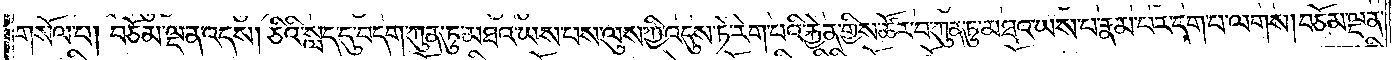གསོལ་པ། བཅོམ་ལྡན་འདས། ཅིའི་སླད་དུ་བདག་ཀུན་ཏུ་མཐའ་ཡས་པས་ལུས་ཀྱི་འདུས་ཏེ་རེག་པའི་རྐྱེན་གྱིས་ཚོར་བ་ཀུན་ཏུ་མཐའ་ཡས་པ་རྣམ་པར་དག་པ་ལགས། བཅོམ་ལྡན་
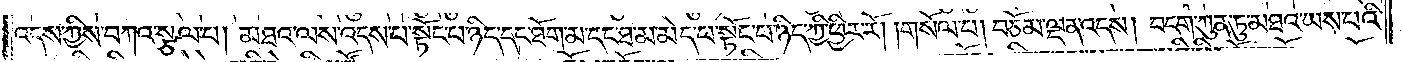འདས་ཀྱིས་བཀའ་སྩལ་པ། མཐའ་ལས་འདས་པ་སྟོང་པ་ཉིད་དང་ཐོག་མ་དང་ཐ་མ་མེད་པ་སྟོང་པ་ཉིད་ཀྱི་ཕྱིར་རོ། །གསོལ་པ། བཅོམ་ལྡན་འདས། བདག་ཀུན་ཏུ་མཐའ་ཡས་པའི་
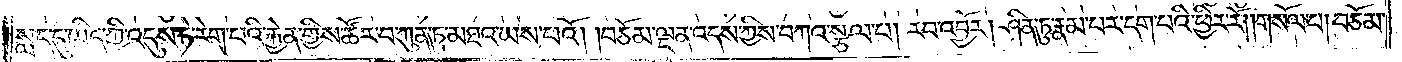སླད་དུ་ཡིད་ཀྱི་འདུས་ཏེ་རེག་པའི་རྐྱེན་གྱིས་ཚོར་བ་ཀུན་ཏུ་མཐའ་ཡས་པའོ། །བཅོམ་ལྡན་འདས་ཀྱིས་བཀའ་སྩལ་པ། རབ་འབྱོར། ཤིན་ཏུ་རྣམ་པར་དག་པའི་ཕྱིར་རོ། །གསོལ་པ། བཅོམ་
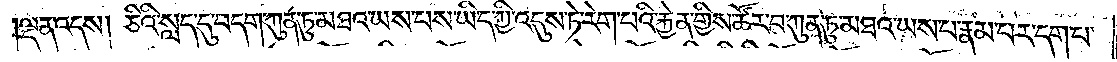ལྡན་འདས། ཅིའི་སླད་དུ་བདག་ཀུན་ཏུ་མཐའ་ཡས་པས་ཡིད་ཀྱི་འདུས་ཏེ་རེག་པའི་རྐྱེན་གྱིས་ཚོར་བ་ཀུན་ཏུ་མཐའ་ཡས་པ་རྣམ་པར་དག་པ་
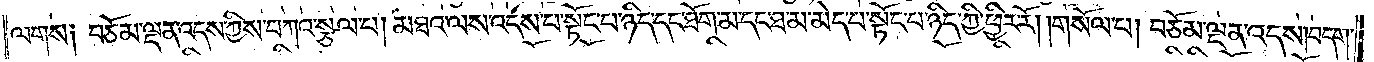ལགས༑ བཅོམ་ལྡན་འདས་ཀྱིས་བཀའ་སྩལ་པ། མཐའ་ལས་འདས་པ་སྟོང་པ་ཉིད་དང་ཐོག་མ་དང་ཐ་མ་མེད་པ་སྟོང་པ་ཉིད་ཀྱི་ཕྱིར་རོ། །གསོལ་པ། བཅོམ་ལྡན་འདས། བདག་
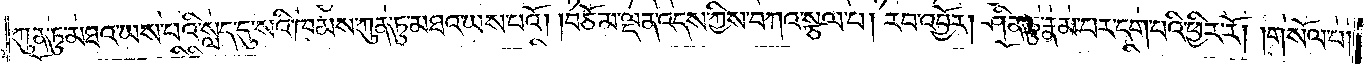ཀུན་ཏུ་མཐའ་ཡས་པའི་སླད་དུ་སའི་ཁམས་ཀུན་ཏུ་མཐའ་ཡས་པའོ། །བཅོམ་ལྡན་འདས་ཀྱིས་བཀའ་སྩལ་པ། རབ་འབྱོར། ཤིན་ཏུ་རྣམ་པར་དག་པའི་ཕྱིར་རོ། །གསོལ་པ།
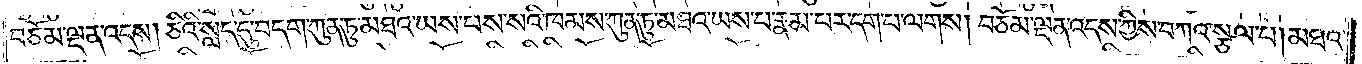བཅོམ་ལྡན་འདས། ཅིའི་སླད་དུ་བདག་ཀུན་ཏུ་མཐའ་ཡས་པས་སའི་ཁམས་ཀུན་ཏུ་མཐའ་ཡས་པ་རྣམ་པར་དག་པ་ལགས། བཅོམ་ལྡན་འདས་ཀྱིས་བཀའ་སྩལ་པ། མཐའ་
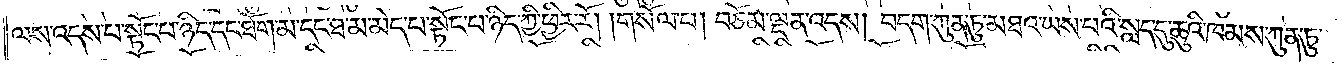ལས་འདས་པ་སྟོང་པ་ཉིད་དང་ཐོག་མ་དང་ཐ་མ་མེད་པ་སྟོང་པ་ཉིད་ཀྱི་ཕྱིར་རོ། །གསོལ་པ། བཅོམ་ལྡན་འདས། བདག་ཀུན་ཏུ་མཐའ་ཡས་པའི་སླད་དུ་ཆུའི་ཁམས་ཀུན་ཏུ་
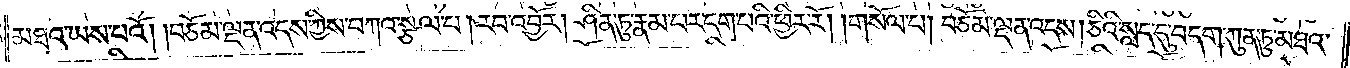མཐའ་ཡས་པའོ། །བཅོམ་ལྡན་འདས་ཀྱིས་བཀའ་སྩལ་པ། རབ་འབྱོར། ཤིན་ཏུ་རྣམ་པར་དག་པའི་ཕྱིར་རོ། །གསོལ་པ། བཅོམ་ལྡན་འདས། ཅིའི་སླད་དུ་བདག་ཀུན་ཏུ་མཐའ་
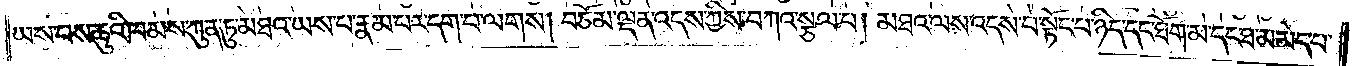ཡས་པས་ཆུའི་ཁམས་ཀུན་ཏུ་མཐའ་ཡས་པ་རྣམ་པར་དག་པ་ལགས། བཅོམ་ལྡན་འདས་ཀྱིས་བཀའ་སྩལ་པ། མཐའ་ལས་འདས་པ་སྟོང་པ་ཉིད་དང་ཐོག་མ་དང་ཐ་མ་མེད་པ་
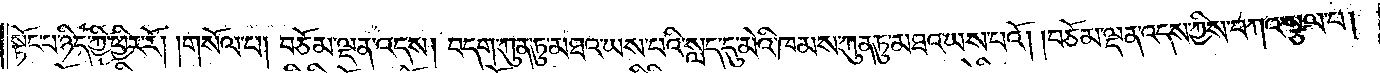སྟོང་པ་ཉིད་ཀྱི་ཕྱིར་རོ། །གསོལ་པ། བཅོམ་ལྡན་འདས། བདག་ཀུན་ཏུ་མཐའ་ཡས་པའི་སླད་དུ་མེའི་ཁམས་ཀུན་ཏུ་མཐའ་ཡས་པའོ། །བཅོམ་ལྡན་འདས་ཀྱིས་བཀའ་སྩལ་པ།
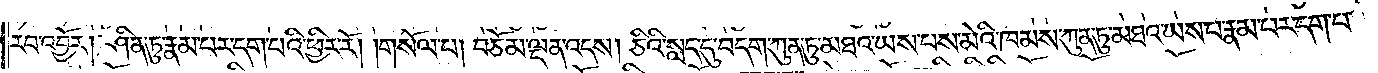རབ་འབྱོར། ཤིན་ཏུ་རྣམ་པར་དག་པའི་ཕྱིར་རོ། །གསོལ་པ། བཅོམ་ལྡན་འདས། ཅིའི་སླད་དུ་བདག་ཀུན་ཏུ་མཐའ་ཡས་པས་མེའི་ཁམས་ཀུན་ཏུ་མཐའ་ཡས་པ་རྣམ་པར་དག་པ་
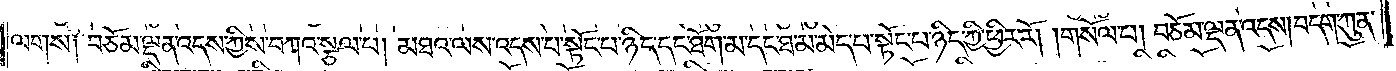ལགས༑ བཅོམ་ལྡན་འདས་ཀྱིས་བཀའ་སྩལ་པ། མཐའ་ལས་འདས་པ་སྟོང་པ་ཉིད་དང་ཐོག་མ་དང་ཐ་མ་མེད་པ་སྟོང་པ་ཉིད་ཀྱི་ཕྱིར་རོ། །གསོལ་པ། བཅོམ་ལྡན་འདས། བདག་ཀུན་
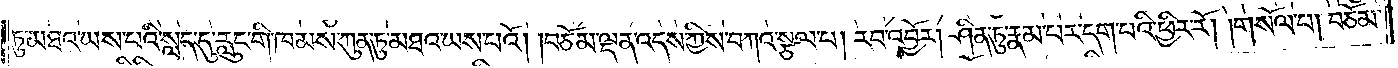ཏུ་མཐའ་ཡས་པའི་སླད་དུ་རླུང་གི་ཁམས་ཀུན་ཏུ་མཐའ་ཡས་པའོ། །བཅོམ་ལྡན་འདས་ཀྱིས་བཀའ་སྩལ་པ། རབ་འབྱོར། ཤིན་ཏུ་རྣམ་པར་དག་པའི་ཕྱིར་རོ། །གསོལ་པ། བཅོམ་
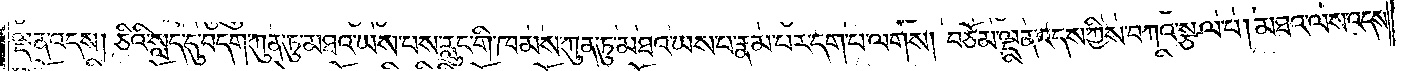ལྡན་འདས། ཅིའི་སླད་དུ་བདག་ཀུན་ཏུ་མཐའ་ཡས་པས་རླུང་གི་ཁམས་ཀུན་ཏུ་མཐའ་ཡས་པ་རྣམ་པར་དག་པ་ལགས། བཅོམ་ལྡན་འདས་ཀྱིས་བཀའ་སྩལ་པ། མཐའ་ལས་འདས་
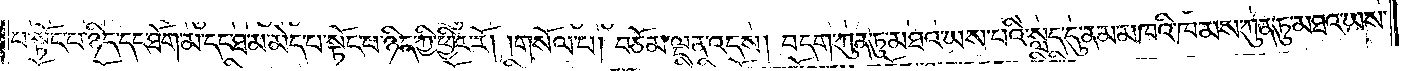པ་སྟོང་པ་ཉིད་དང་ཐོག་མ་དང་ཐ་མ་མེད་པ་སྟོང་པ་ཉིད་ཀྱི་ཕྱིར་རོ། །གསོལ་པ། བཅོམ་ལྡན་འདས། བདག་ཀུན་ཏུ་མཐའ་ཡས་པའི་སླད་དུ་ནམ་མཁའི་ཁམས་ཀུན་ཏུ་མཐའ་ཡས་
